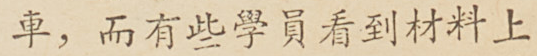車，而有些學員看到材料上
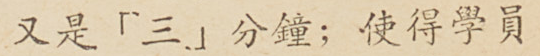又是「三」分鐘；使得學員
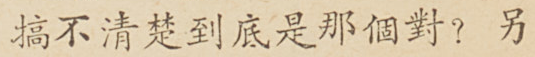搞不清楚到底是那個對？另
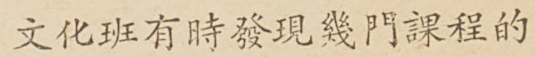文化班有時發現幾門課程的
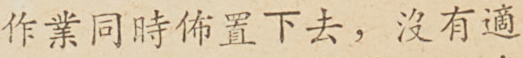作業同時佈置下去，沒有適
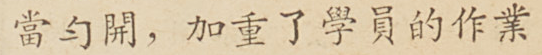當勻開，加重了學員的作業
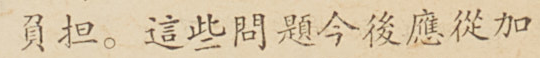負擔。這些問題今後應從加
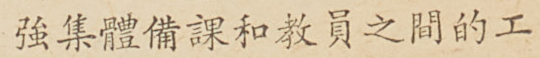強集體備課和教員之間的工
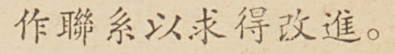作聯系以求得改進，
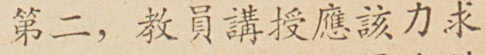第二，教員講授應該力求
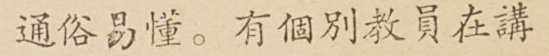通俗易懂。有個別教員在講
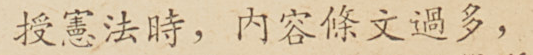授憲法時，內容條文過多，
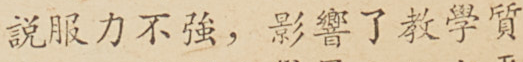說服力不強，影響了教學質
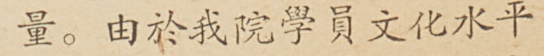量。由於我院學員文化水平
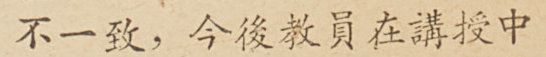不一致，今後教員在講授中
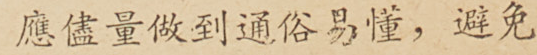應儘量做到通俗易懂，避免
